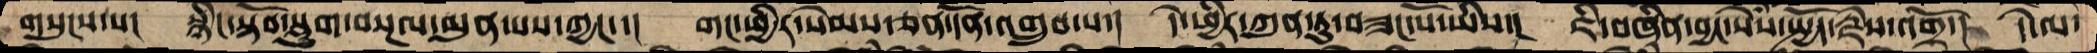གསུངས་པ།  སྙིང་སྟོབ་སྡུག་བསྔལ་མུན་པས་ཀྱང་་།  གང་ཕྱིར་སེམས་ཅན་དོན་འགྲུབ་པ་།  དེ་ཕྱིར་ཀུན་ཏུ་བཟང་པོ་ཡིས་།  ཇི་བཞིན་བྱང་སེཾས་སྤྱོད་རྗེས་འགྲོ་།  དེ་ལ་
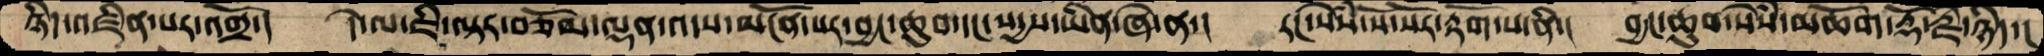ཉིད་འཛིན་པར་འགྲོ་།  དེ་ལ་ཇི་ལྟར་བཅོམ་ལྡན་འདས་མངོན་པར་བྱང་ཆུབ་དང་སདྱས་ཡིན་ཞེ་ན་།  རང་སེཾས་སོ་སོར་རྟོག་པ་ནི་།  བྱང་ཆུབ་སེཾས་མཆོག་རྡོ་རྗེ་ཉིད་།
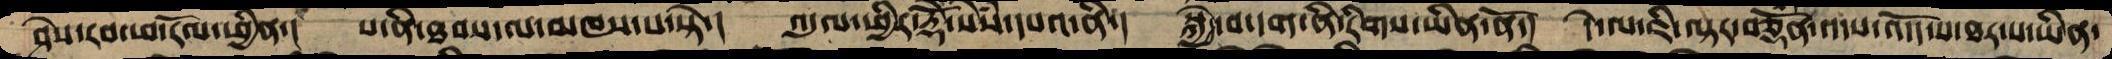ཤེས་རབ་ཕ་རོལ་ཕྱིན་།  པ་ནི་ཐབས་ལ་མཁས་པ་སྟེ་།  འདུལ་ཕྱིར་རྡོེ་སེཾས་དཔའ་ནི་།  སྐྱེ་བ་དག་ནི་རིགས་ཡིན་ནོ་།  དེ་ལ་ཇི་ལྟར་བཅྟོཾན་འདས་འདོད་པ་ཐར་པ་ཡིན་
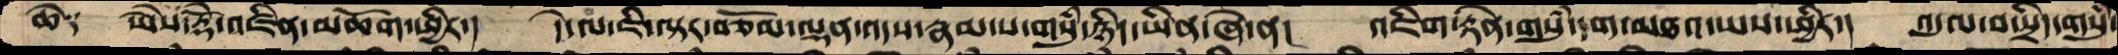ཆེ༑   ཡཻས་རྡོེ་འཛིན་མཆོག་ཕྱིར་།  དེ་ལ་ཇི་ལྟར་བཅོམ་ལྡན་འདས་རྣམ་པ་གསུཾ་ཉིད་ཡིན་ཞེ་ན།  འཇིག་རྟེན་གསུཾ་དག་མཐའ་ཡས་ཕྱིར་།  འདུལ་བ་སྲིད་གསུཾ་
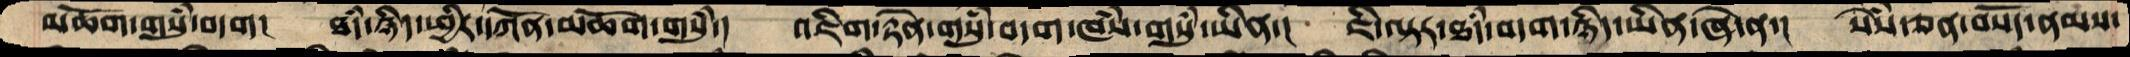མཆོག་གསུཾ་བདག།  ཐདཾ་ཉིད་ཕྱིར་དཀོན་མཆོག་གསུཾ་།  འཇིག་རྟེན་གསུཾ་བདག་ཁཾས་གསུཾ་ཡིན་།  ཇི་ལྟར་ཐདཾ་བདག་ཉིད་ཡིན་ཞེ་ན་།  སེཾས་ཅན་བསོད་ནམས་
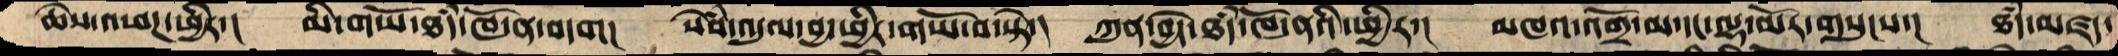ཆེས་འཕཌ་ཕྱིར་།  མི་གཡོ་ཐདཾ་ཁོ་ན་བདག།  སེཾས་འདུལ་བྱ་ཕྱིར་གཡོ་བ་སྟེ་།  ཀུན་བྱེད་ཐདཾ་ཁོ་ནའི་ཕྱིར་།  མཁའ་འགྲོ་མ་དང་ལྷ་མོར་གསུངས་།  ཐདཾ་མཛད་
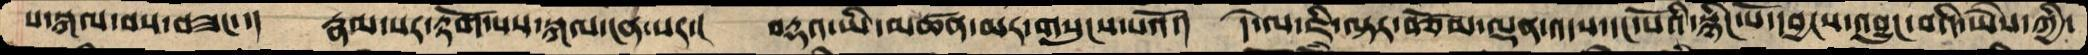པ་སྐལ་བས་བཟང་་།  རྣམ་པར་རྟོག་པས་སྐལ་ངན་པར་།  བརྡའ་ཡི་མཚན་མར་གསུངས་པའོ་།  དེ་ལ་ཇི་ལྟར་བཅོམ་ལྡན་འདས་དང་པོའི་སྙིང་པོ་དབྱངས་འབྱུང་བའི་ཡཻས་ཀྱི་
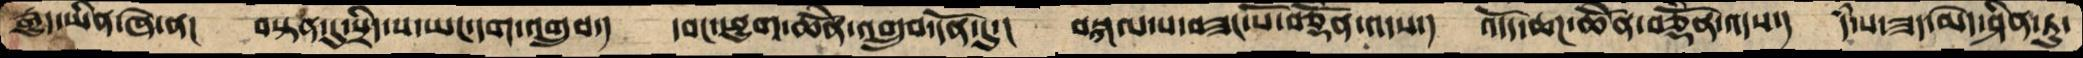རྒྱུད་ཡིན་ཞེ་ན།  བསྟན་དུ་སྲིད་པ་ཡང་དག་འགྲུབ་།  དབང་ཕྱུག་ཆེནོ་འགྲུབ་དོན་དུ་།  བསྐལ་པ་བཟང་པོ་བཅྡོཾན་འདས་།  འདོད་ཆཌ་ཆེོན་བཅྡོཾན་འདས་།  དཾ་པ་ཟད་མེད་ཤིན་ཏུ་
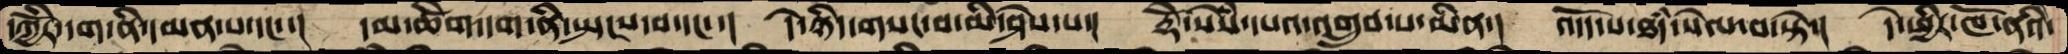དཀྱིོར་དག་ནི་དམན་པ་དང་་།  དམ་ཚིག་དག་ནི་སྤངས་བ་དང་་།  དེ་ཉིད་གསང་བ་མི་ཤེས་པ་།  རྡོེ་སེཾས་དཔའ་འགྲུབ་པ་མིན་།  འདོད་པ་ཐཾད་སེལ་བ་སྟེ་།  དེ་ཕྱིར་ཁོ་ནའི་
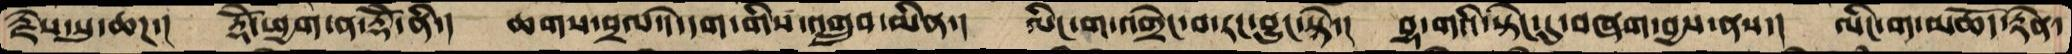རྗེས་སུ་ཆཌ་།  རྡོེ་ཕྱག་ན་རྡོེ་ནི་།  ཆགས་བྲལ་དེ་དག་གིས་འགྲུབ་མིན་།  ལིང་ག་འགྲེང་བ་རང་བྱུང་སྟེ་།  བྷ་གའི་སྟེང་དུ་བཞག་བྱས་ནས་།  ལིང་ག་མཆོད་རྟེན་
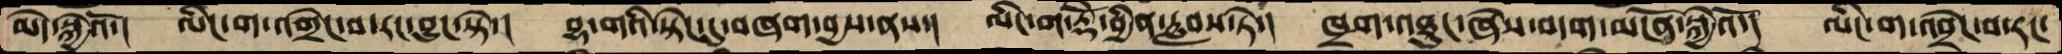མེད་སྐྱེའོ་།  ལིང་ག་འགྲེང་བ་རང་བྱུང་སྟེ་།  བྷ་གའི་སྟེང་དུ་བཞག་བྱས་ནས་།  ལིང་ག་རྡོེ་བྱིན་རླབས་ཏེ་།  ཁྲག་འཐུང་ཞེས་བདག་མངོན་སྐྱེའོ་།  ལིང་ག་འབྲེང་བ་རང་
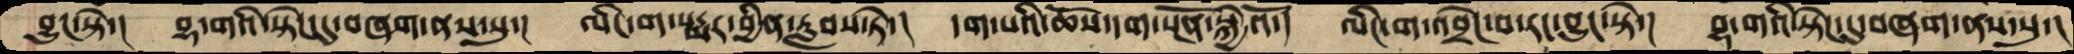བྱུང་སྟེ་།  བྷ་གའི་སྟེང་དུ་བཞག་ནས་སུ་།  ལིང་ག་པདྨར་བྱིན་རླབས་ཏེ་།  དག་པའི་ཆོས་དག་སྔོན་སྐྱེའོ་།  ལིང་ག་འབྲེང་བ་རང་བྱུང་སྟེ་།  བྷ་གའི་སྟེང་དུ་བཞག་ནས་སུ་།
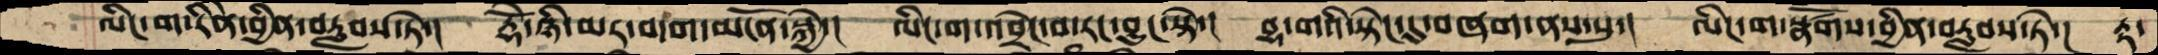ལིང་ག་རིནེ་བྱིན་བརླབས་ཏེ་།  རྡོེ་ཉི་མར་བདག་མངོན་སྐྱེ་།  ལིང་ག་འབྲེང་བ་རང་བྱུང་སྟེ་།   བྷ་གའི་སྟེང་དུ་བཞག་ནས་སུ་།  ལིང་ག་སྣཚོགས་བྱིན་བརླབས་ཏེ་།  རྟ་
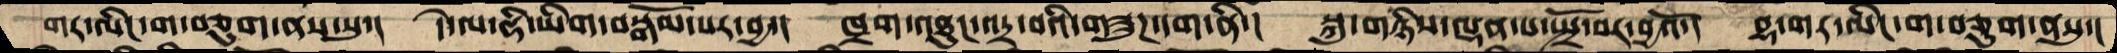གར་ལིང་ག་བཅུག་ནས་སུ་།  དེ་ལ་ཧི་ཡིག་བསྒོམ་པར་བྱ་།  ཁྲག་འཐུང་འདྲ་བའི་གཟུཌ་དག་ནི་།  སྐུ་གཉིས་ལྡན་པ་སྤྲོ་བར་བྱའོ་།  བྷ་གར་ལིང་ག་བཅུག་ནསུ་།
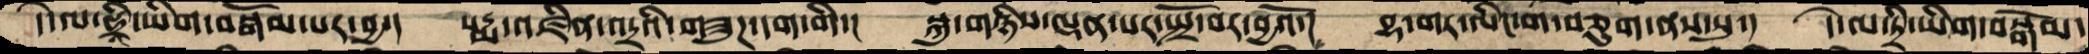དེ་ལ་ཧྲཱི་ཡིག་བསྒོམ་པར་བྱ་།  པདྨ་འཛིན་འདྲའི་གཟུཌ་དག་གི་།  སྐུ་གཉིས་ལྡན་པར་སྤྲོ་བར་བྱའོ་།  བྷ་གར་ལིང་ག་བཅུག་ནས་སུ་།  དེ་ལ་ཏྲི་ཡིག་བསྒོམ་
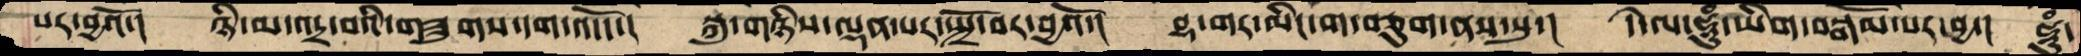པར་བྱའོ་།  ཉི་མ་འདྲ་བའི་གཟུགས་དག་འདོད་།  སྐུ་གཉིས་ལྡན་པར་སྤྲོ་བར་བྱའོ་།  བྷ་གར་ལིང་ག་བཅུག་ནས་སུ་།  དེ་ལ་ཧཱུཾ་ཡིག་བསྒོམ་པར་བྱ་།  ཧཱུཾ་
